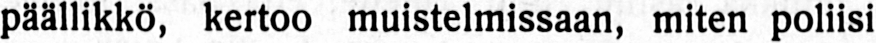päällikkö, kertoo muistelmissaan, miten poliisi
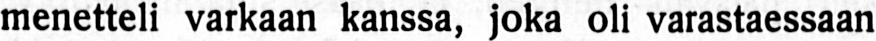menetteli varkaan kanssa, joka oli varastaessaan
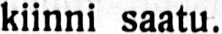kiinni saatu.
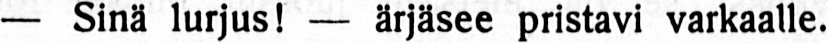— Sinä lurjus! — ärjäsee pristavi varkaalle.
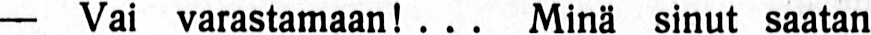— Vai varastamaan! . . . Minä sinut saatan
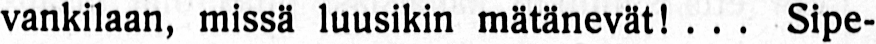vankilaan, missä luusikin mätänevät! . . . Sipe-
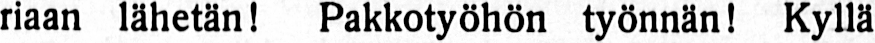riaan lähetän! Pakkotyöhön työnnän! Kyllä
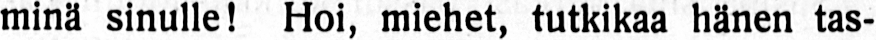minä sinulle! Hoi, miehet, tutkikaa hänen tas-
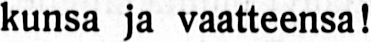kunsa ja vaatteensa!
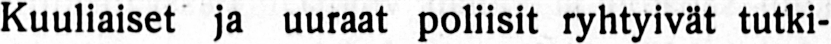Kuuliaiset ja uuraat poliisit ryhtyivät tutki-
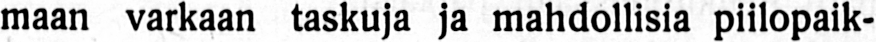maan varkaan taskuja ja mahdollisia piilopaik-
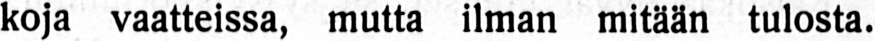koja vaatteissa, mutta ilman mitään tulosta.
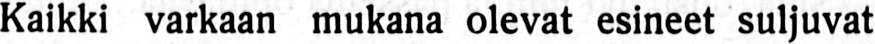Kaikki varkaan mukana olevat esineet suljuvat
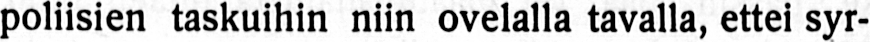poliisien taskuihin niin ovelalla tavalla, ettei syr-
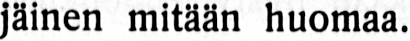jäinen mitään huomaa.
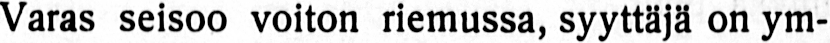Varas seisoo voiton riemussa, syyttäjä on ym-
